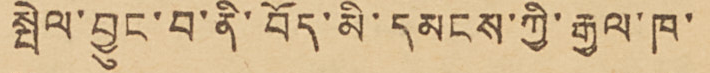སྤེལ་བྱུང་བ་ནི་བོད་མི་དམངས་ཀྱི་རྒྱལ་ཁ་
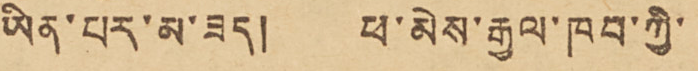ཡིན་པར་མ་ཟད། ཕ་མེས་རྒྱལ་ཁབ་ཀྱི་
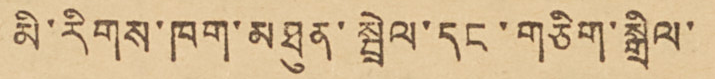མི་རིགས་ཁག་མཐུན་སྤྲེལ་དང་གཅིག་སྒྲིལ་
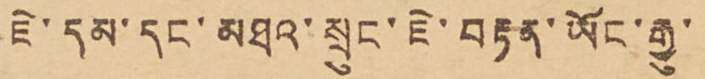ཇེ་དམ་དང་མཐའ་སྲུང་ཇེ་བརྟན་ཡོང་རྒྱུ་
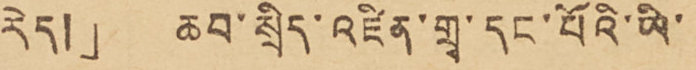རེད།」 ཆབ་སྲིད་འཛིན་གྲྭ་དང་པོའི་ཡི་
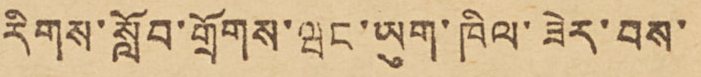རིགས་སློབ་གྲོགས་ཝང་ཡུག་ཁིལ་ཟེར་བས་
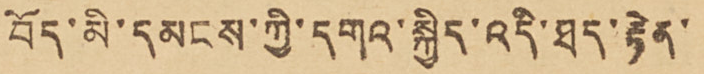བོད་མི་དམངས་ཀྱི་དགའ་སྐྱིད་འདི་ཐད་རྟེན་
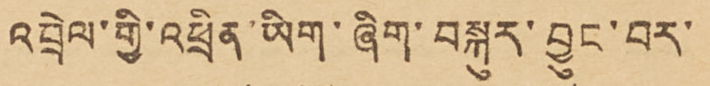འབྲེལ་གྱི་འཕྲིན་ཡིག་ཞིག་བསྐུར་བྱུང་བར་
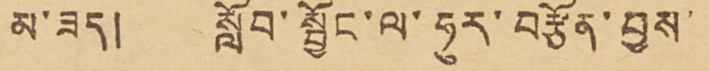མ་ཟད། སློབ་སྦྱོང་ལ་ཧུར་བརྩོན་བྱས་
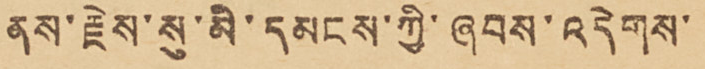ནས་རྗེས་སུ་མི་དམངས་ཀྱི་ཞབས་འདེགས་
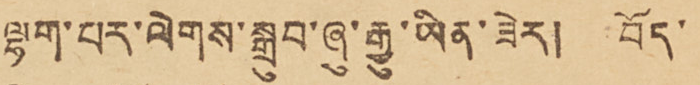ལྷག་པར་ལེགས་སྒྲུབ་ཞུ་རྒྱུ་ཡིན་ཟེར། བོད་
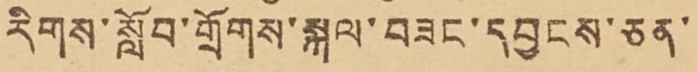རིགས་སློབ་གྲོགས་སྐལ་བཟང་དབྱངས་ཅན་
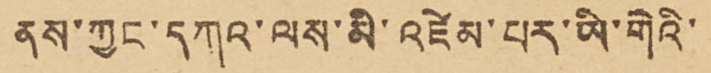ནས་ཀྱང་དཀའ་ལས་མི་འཛེམ་པར་ཡི་གེའི་
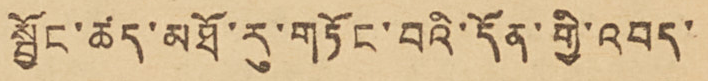སྦྱོང་ཚད་མཐོ་རུ་གཏོང་བའི་དོན་གྱི་འབད་
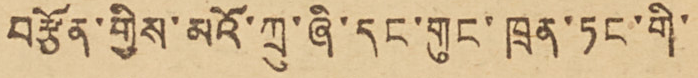བརྩོན་གྱིས་མའོ་ཀྲུ་ཞི་དང་གུང་ཁྲན་ཏང་གི་
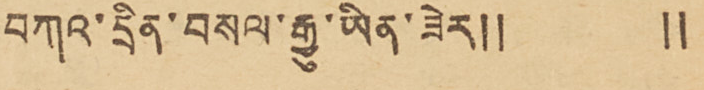བཀའ་དྲིན་བསལ་རྒྱུ་ཡིན་ཟེར༎ ༎
